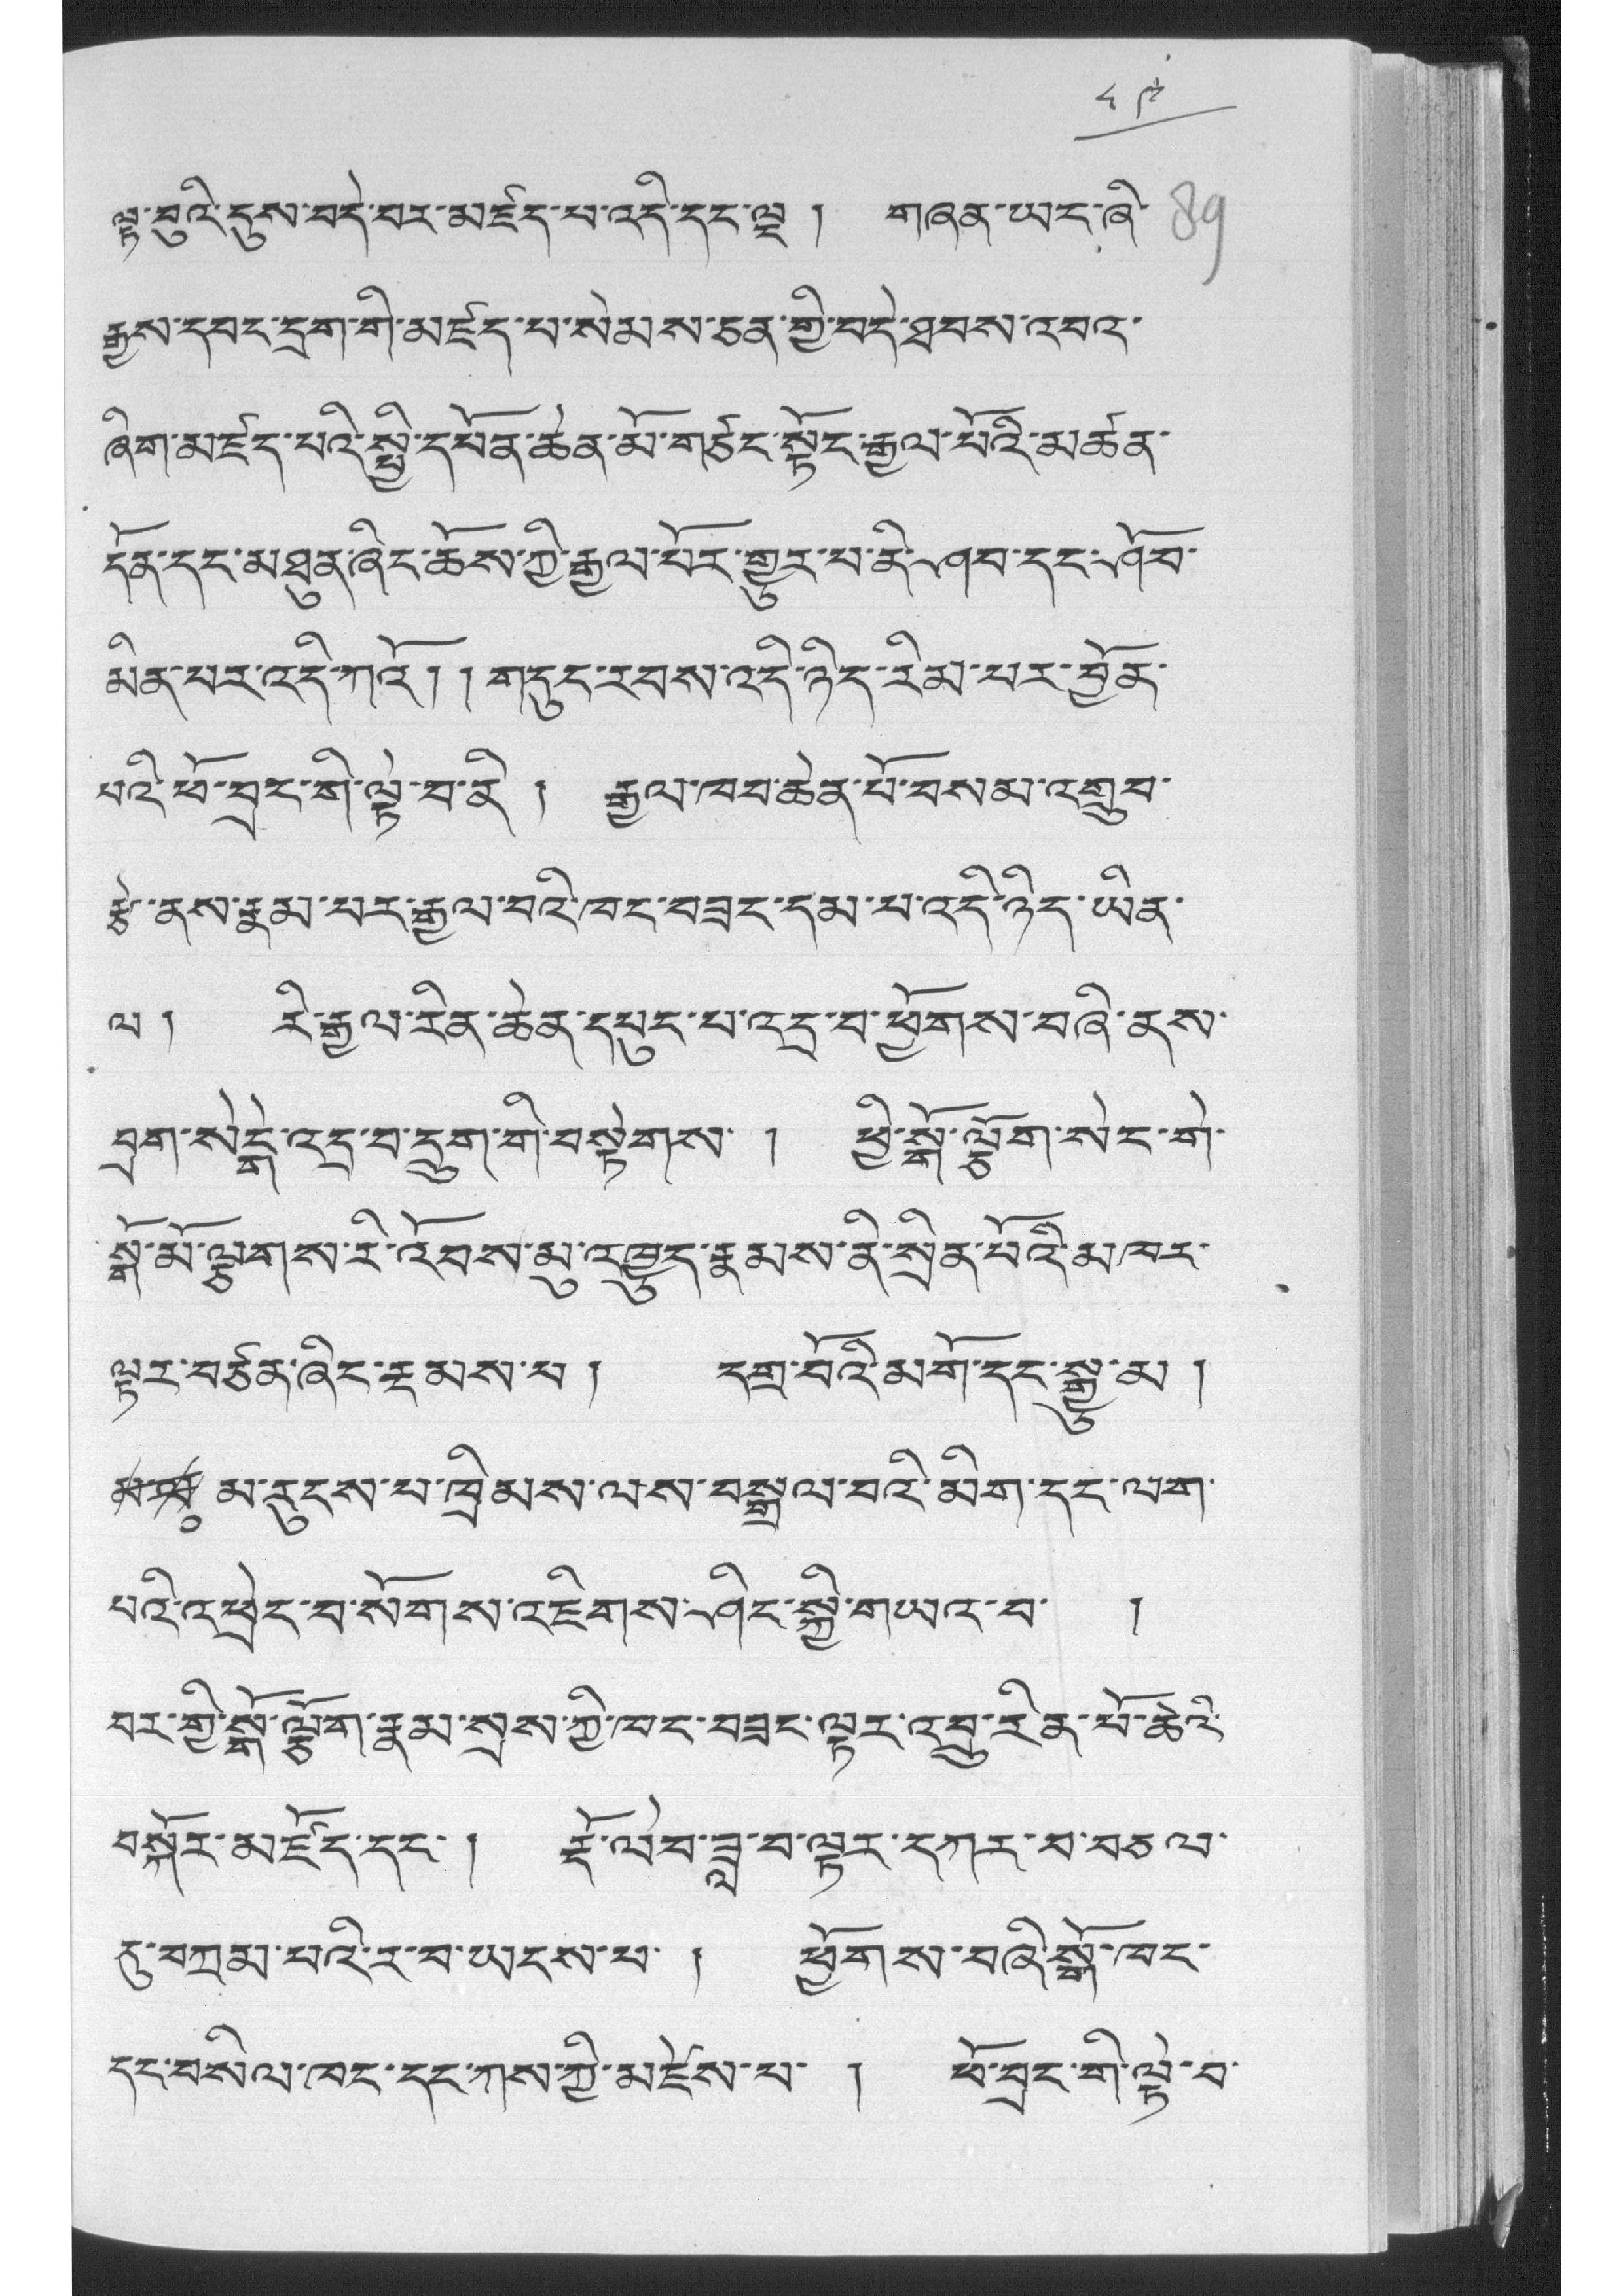༨༩
ལྟ་བུའི་དུས་བདེ་བར་མཛད་པ་འདི་དང་ལྔ ། གཞན་ཡང་ཞི་
རྒྱས་དབང་དྲག་གི་མཛད་པ་སེམས་ཅན་གྱི་བདེ་ཐབས་འབའ་
ཞིག་མཛད་པའི་སྤྱི་དཔོན་ཆེན་མོ་གཙང་སྟོང་རྒྱལ་པོའི་མཚན་
དོན་དང་མཐུན་ཞིང་ཆོས་ཀྱི་རྒྱལ་པོར་གྱུར་བ་ནི་ཤབ་དང་ཤོབ་
མིན་པར་འདི་ཀའོ། ། གདུང་རབས་འདི་ཉིད་རིམ་པར་བྱོན་
པའི་ཕོ་བྲང་གི་ལྟེ་བ་ནི ། རྒྱལ་ཁབ་ཆེན་པོ་བསམ་འགྲུབ་
རྩེ་ནས་རྣམ་པར་རྒྱལ་བའི་ཁང་བཟང་དམ་པ་འདི་ཉིད་ཡིན་
ལ ། རི་རྒྱལ་རིན་ཆེན་དཔུང་པ་འདྲ་བ་ཕྱོགས་བཞི་ནས་
བྲག་སེངྒེ་འདྲ་བ་དྲུག་གི་བསྟེགས་ ། ཕྱི་སྒོ་ལྕོག་སེང་གེ་
སྒོ་མོ་ལྕགས་རི་འོབས་མུ་འཁྱུད་རྣམས་ནི་སྲིན་པོའི་མཁར་
ལྟར་བཙན་ཞིང་རྔམས་པ། དགྲ་བོའི་མགོ་དང་སྒྱུ་མ །
མ་ལ༷ མ་རུངས་པ་ཁྲིམས་ལས་བསྒྲལ་བའི་མིག་དང་ལག་
པའི་འཕྲེང་བ་སོགས་འཇིགས་ཤིང་སྐྱི་གཡར་བ་ །
བར་གྱི་སྒོ་ལྕོག་རྣམ་སྲས་ཀྱི་ཁང་བཟང་ལྟར་འབྲུ་རིན་པོ་ཆེའི་
བསྐོར་མཛོད་དང་། རྡོ་ལེབ་ཟླ་བ་ལྟར་དཀར་བ་བཅལ་
དུ་བཀྲམ་པའི་ར་བ་ཡངས་པ་ ། ཕྱོགས་བཞི་སྒོ་ཁང་
དང་བསིལ་ཁང་དང་ཀས་ཀྱི་མཛེས་པ་ ། ཕོ་བྲང་གི་ལྟེ་བ་
